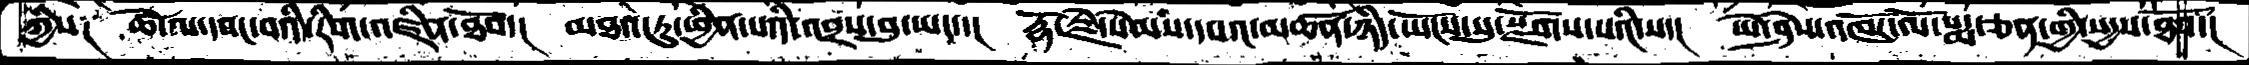ཀྱིས༑  ཚེ་ལ་དབང་བའི་རིག་འཛིན་ཐོབ་།  མཐའ་རུ་ཕྱིན་པའི་འབྲས་བུ་ཡང་་།  རྡོ་རྗེ་སེམས་དཔའ་མཆན་ཉིད་ཡོངས་སུ་སྫོགས་པའི་ས་།  ཡེ་ཤེས་འཁོར་ལོ་པདྨ་ཅན་གྱི་སདྱས་ཐོབ་།
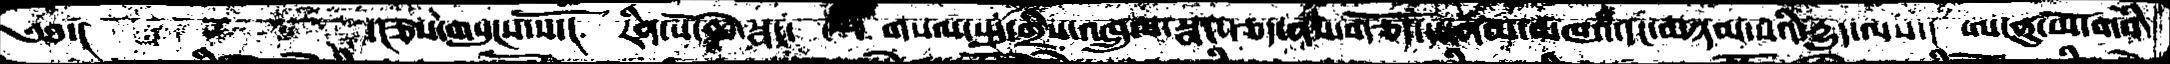༄༅་།  ་།ཅེས་གསུངས་སོ་།  རིན་པོ་ཆེ་སྣང་  གསལ་སྤུ་གྲིས་འཁྲུལ་སྣང་རྩད་ནས་གཅོད་པ་ནམ་མཁའ་དང་མཉམ་པའི་རྒྱུད་ལས་། ཨ་ནུ་ཡོ་གའི་
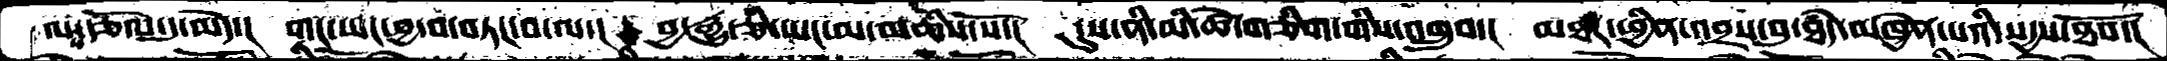ལས་རྩོལ་དུ་མེད་།   གང་ཡང་བྱ་བ་བཏང་བ་ལ་།  བྱ་རྒྱུད་ཅི་ཡང་མ་མཆིས་སོ་།   དུས་ནི་མི་ཚེ་གཅིག་གིས་འགྲུབ་།  མཐར་ཕྱིན་འབྲས་བུ་ཐཾད་མཁྱེན་པའི་སདྱས་ཐོབ་།
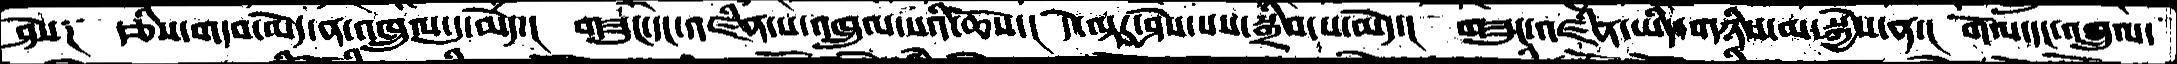ཤེས༑  རྩིས་གདབ་མེད་ན་འཁྲུལ་དུ་མེད་།  གཟུང་དང་འཛིན་པ་འཁྲུལ་པའི་ཆོས་།  དེ་ལྟར་ཤེས་པས་སྒྲིབ་པམེད་།  གཟུང་འཛིན་ཡིད་གཉིས་མ་སྐྱེས་ན་།  གོལ་དང་འཁྲུལ་
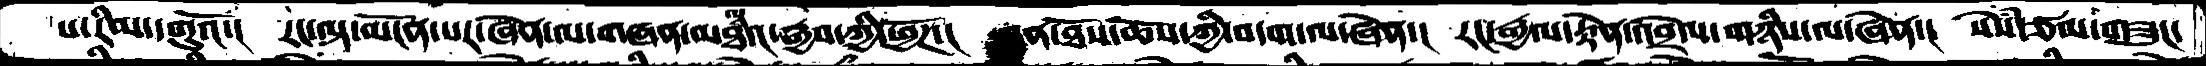པ་རིམ་དགུའོ་།  རང་ལྟ་མངོན་པར་ཞེན་ལ་གཞན་མཐའ་རྒྱབ་ཀྱི་ཕྱོཌ་།  ཉན་ཐོས་ཆོས་ཀྱི་བདག་ལ་ཞེན་།  རང་རྒྱལ་རྟེན་འབྲེལ་གཉིས་ལ་ཞེན་།  སེཾས་ཙམ་གཟུང་
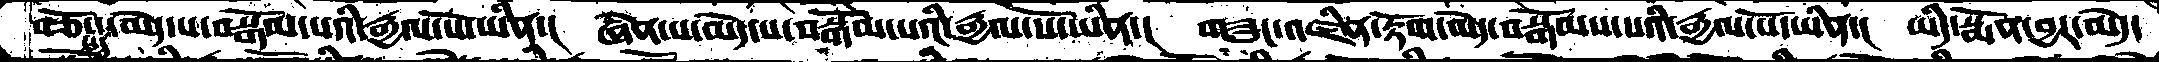བཅོས་སུ་མེད་པ་བསྒོམ་པའི་རྒྱལ་པོ་ཡིན་།  ཞེན་པ་མེད་པ་བསྒོམ་པའི་རྒྱལ་པོ་ཡིན་།  གཟུང་འཛིན་རྟོག་མེད་བསྒོམས་པའི་རྒྱལ་པོ་ཡིན་།  ཡིད་སྨོན་བྱར་མེད་
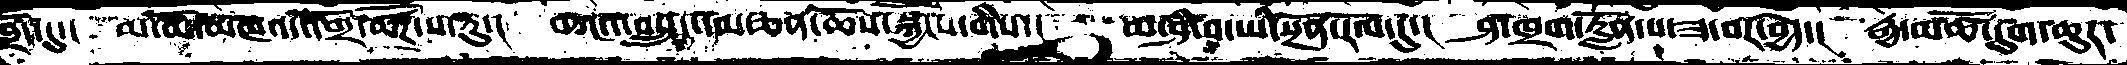ཁྲོད་དུ་།  མ་མོ་མཁའ་འགྲོ་ཚོཌ་པ་རུ་།  བཀའ་བསྲུང་དམ་ཅན་ཆོས་སྐྱོངས་གིས་།  མ་ཤི་བ་ཡི་སྔོན་རོལ་དུ་།  ཤ་ཁྲག་རློན་པ་ཟ་བར་བྱེད་།  རྒྱ་མཚོ་དུག་ཆུར་
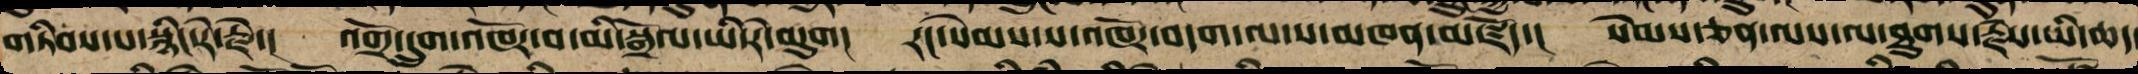གཏིབས་པ་སྙིང་རེ་རྗེ་།  འགྲོ་དྲུག་འཁོར་བ་མི་སྒྲོལ་ཡི་རེ་མུག།  རང་སེམས་ས་འཁོར་བདག་ལ་ས་མཁན་མཛོད་།   སེམས་ཅན་ལས་ལ་ཐུགས་རྗེས་ཡི་ཆད་
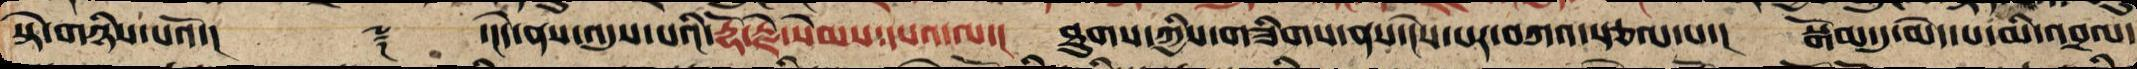སྟེ་གཉིས་པའོ་།    ༈    ་།དེ་ནས་འདུས་པའི་རྡོ་རྗེ་སེམས་དཔའ་ལ་།   ཐུགས་ཀྱིས་གཟིགས་ནས་ངེས་པར་བཀའ་སྩལ་པ་།   སྒོམ་དུ་མེད་པ་མི་འབྲལ་
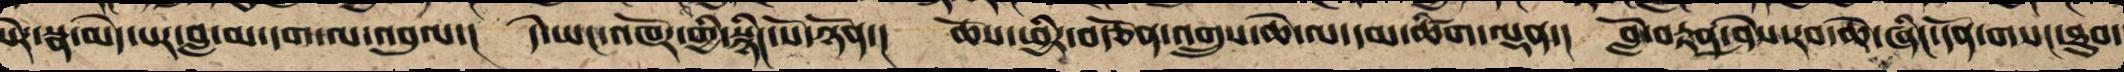སེར་སྣ་མེད་པར་བླ་མ་དག་ལ་འབུལ་།   དེ་ཡང་འཁོར་གྱི་སྙིང་པོ་ཉོན་།   ཆོས་ཕྱིར་བརྩོན་འགྲུས་ཆེ་ལ་དམ་ཚིག་ལྡན་།    བློ་བརྟན་ཤེས་རབ་ཆེ་ཞིང་དོན་གསང་ཐུབ་
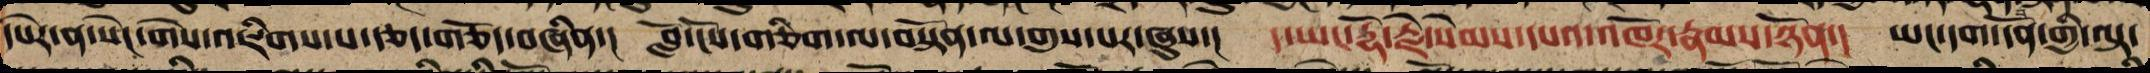དཔེར་ན་སེང་གེས་འཇིགས་པ་རྩད་གཅོད་བཞིན་།    བློ་ངོས་གཅིག་ལ་བསྟོན་ལ་གུས་པར་ཞུས་།   ད་ཡང་རྡོ་རྗེ་སེམས་དཔའ་འཁོར་རྣམས་ཉོན་།   ཡང་དག་དོན་གྱི་ལྟ་
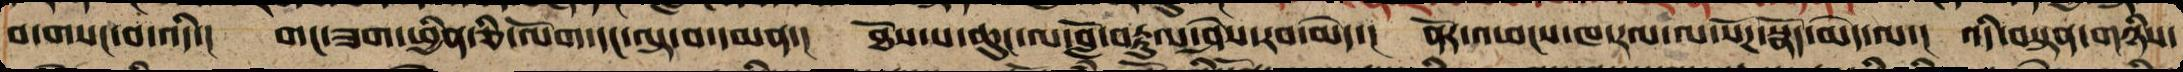བ་གསང་བ་འདི་།   གང་ཟག་ཕྱིན་ཅི་ལོག་དང་ལྟ་བ་དམན་།   ཐོས་པ་ཆུང་ལ་བློ་བརྟུལ་ཤེས་རབ་མེད་།   ནོར་འཕངས་ཁ་རལ་ལ་སོཌ་སྣོད་མེད་ལ་།   འདི་བསྟན་གཉིས་
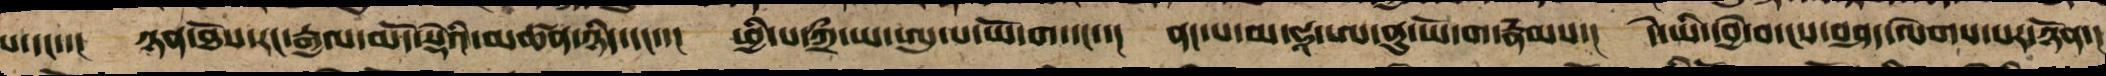པ་དང་་།   ཉན་ཐོས་རང་རྒྱལ་མདོ་སྡེའི་མཚན་ཉིད་དང་་།   ཕྱི་པ་ཀྲྀ་ཡ་ཨུ་པ་ཡོ་ག་དང་་།   ནང་པ་མ་ཧཱ་ཨ་ནུ་ཡོ་ག་རྣམས་།   དེ་ཡི་དབྱེ་བ་ངས་བཤད་ལེགས་པར་ཉོན་།
